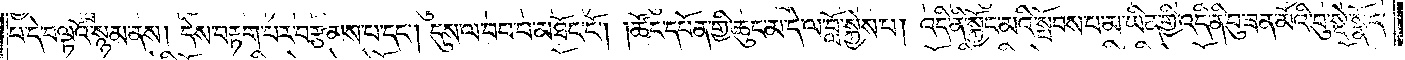པ་དེ་བལྟའོ་སྙམ་ནས། དེས་བརྟག་པར་བརྩམས་པ་དང༌། དུས་ལ་བབ་པ་མཐོང་ངོ༌། །ཚོང་དཔོན་གྱི་ཆུང་མ་དེ་ལ་བློ་སྐྱེས་པ། འདི་ནི་སྐྱོང་མའི་སྤོབས་པ་མ་ཡིན་གྱི་འདི་ནི་བུ་ཟན་མོའི་བུ་སྡེ་སྣོད་
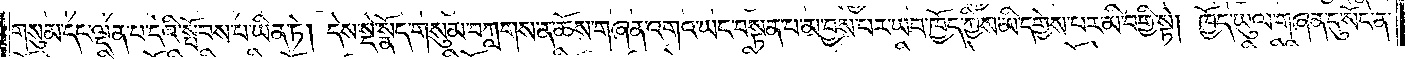གསུམ་དང་ལྡན་པ་དེའི་སྤོབས་པ་ཡིན་ཏེ། དེས་སྡེ་སྣོད་གསུམ་བཀླགས་ན་ཆོས་གཞན་འགའ་ཡང་བསྟན་པ་མ་བྱས་པར་ཡབ་ཁྱོད་ཀྱིས་མི་དགྱེས་པར་མི་བགྱི་སྟེ། ཁྱོད་ཡུལ་གཞན་དུ་སོང་ན་
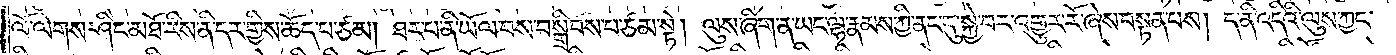ལོ་ལེགས་ཤིང་མཐོ་རིས་ནི་དར་གྱིས་ཆོད་པ་ཙམ། ཐར་པ་ནི་ཡོལ་བས་བསྒྲིབས་པ་ཙམ་སྟེ། ལུས་ཞིག་ན་ཡང་ལྷ་རྣམས་ཀྱི་ནང་དུ་སྐྱེ་བར་འགྱུར་རོ་ཞེས་བསྟན་པས། ད་ནི་འདིའི་ལུས་ཀྱང་
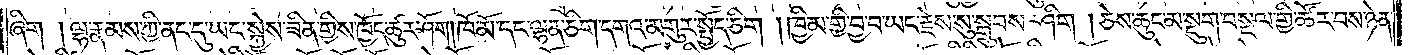ཞིག །ལྷ་རྣམས་ཀྱི་ནང་དུ་ཡང་སྐྱེས་ཟིན་གྱིས་ཁྱོད་ཚུར་ཤོག །ཁོ་མོ་དང་ལྷན་ཅིག་དགའ་མགུར་སྤྱོད་ཅིག །ཁྱིམ་གྱི་བྱ་བ་ཡང་རྗེས་སུ་སྒྲུབས་ཤིག །ཅེས་ཆུང་མ་སྡུག་བསྔལ་གྱི་ཚོར་བས་ཉེན་
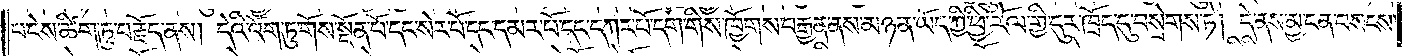པ་ངེས་ཚིག་ཏུ་བརྗོད་ནས། དེའི་འོག་ཏུ་གོས་སྔོན་པོ་དང་སེར་པོ་དང་དམར་པོ་དང་དཀར་པོ་དག་གིས་ཁྱོགས་བརྒྱན་ནས་མཉན་ཡོད་ཀྱི་ཕྱི་རོལ་གྱི་དུར་ཁྲོད་དུ་བསྲེགས་ཏེ། དེ་ནས་མྱ་ངན་བསངས་
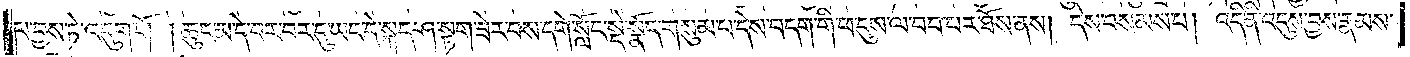པ་བྱས་ཏེ་འདུག་གོ །ཆུང་མ་དེ་བར་བར་དུ་ཡང་དེ་སྐད་ཤ་སྟག་ཟེར་བས་དགེ་སློང་སྡེ་སྣོད་གསུམ་པ་དེས་བདག་གི་ཕ་དུས་ལ་བབ་པར་ཐོས་ནས། དེས་བསམས་པ། འདི་ནི་འདུས་བྱས་རྣམས་
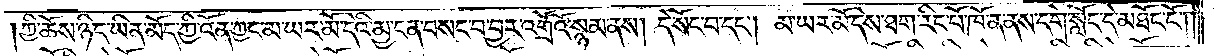།ཀྱི་ཆོས་ཉིད་ཡིན་མོད་ཀྱི་འོན་ཀྱང་མ་ཡར་མོ་དེའི་མྱ་ངན་བསང་བ་བྱར་འགྲོའོ་སྙམ་ནས། དེ་སོང་བ་དང༌། མ་ཡར་མོ་དེས་ཐག་རིང་པོ་ཁོ་ན་ནས་དགེ་སློང་དེ་མཐོང་ངོ༌། །
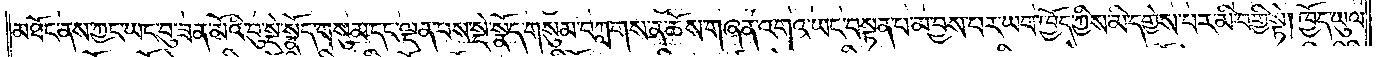མཐོང་ནས་ཀྱང་ཡང་བུ་ཟན་མོའི་བུ་སྡེ་སྣོད་གསུམ་དང་ལྡན་པས་སྡེ་སྣོད་གསུམ་བཀླགས་ན་ཆོས་གཞན་འགའ་ཡང་བསྟན་པ་མ་བྱས་པར་ཡབ་ཁྱོད་ཀྱིས་མི་དགྱེས་པར་མི་བགྱི་སྟེ། ཁྱོད་ཡུལ་
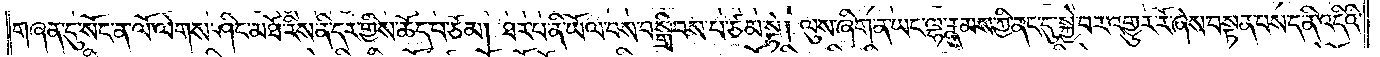གཞན་དུ་སོང་ན་ལོ་ལེགས་ཤིང་མཐོ་རིས་ནི་དར་གྱིས་ཆོད་པ་ཙམ། ཐར་པ་ནི་ཡོལ་བས་བསྒྲིབས་པ་ཙམ་སྟེ། ལུས་ཞིག་ན་ཡང་ལྷ་རྣམས་ཀྱི་ནང་དུ་སྐྱེ་བར་འགྱུར་རོ་ཞེས་བསྟན་པས་ད་ནི་འདིའི་
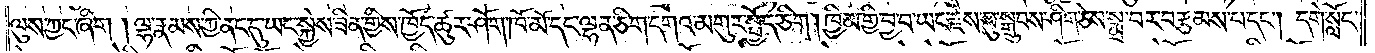ལུས་ཀྱང་ཞིག། ལྷ་རྣམས་ཀྱི་ནང་དུ་ཡང་སྐྱེས་ཟིན་གྱིས་ཁྱོད་ཚུར་ཤོག་ཁོ་མོ་དང་ལྷན་ཅིག་དགའ་མགུར་སྤྱོད་ཅིག། ཁྱིམ་གྱི་བྱ་བ་ཡང་རྗེས་སུ་སྒྲུབས་ཤིག་ཅེས་སྨྲ་བར་བརྩམས་པ་དང༌། དགེ་སློང་
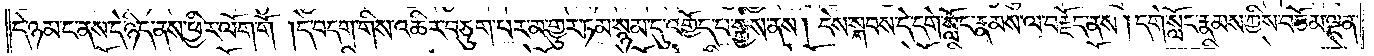དེ་ཉམ་ང་ནས་དེ་ཉིད་ནས་ཕྱིར་ལོག་གོ །དེ་བདག་གིས་འཆིར་བཅུག་པར་མ་གྱུར་ཏམ་སྙམ་དུ་འགྱོད་པ་སྐྱེས་ནས། དེས་སྐབས་དེ་དགེ་སློང་རྣམས་ལ་བརྗོད་ནས། དགེ་སློང་རྣམས་ཀྱིས་བཅོམ་ལྡན་
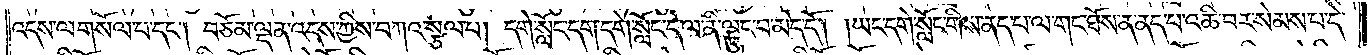འདས་ལ་གསོལ་པ་དང༌། བཅོམ་ལྡན་འདས་ཀྱིས་བཀའ་སྩལ་པ། དགེ་སློང་དག་དགེ་སློང་དེ་ལ་ནི་ལྟུང་བ་མེད་དོ། །ཡང་དགེ་སློང་གིས་ནད་པ་ལ་གང་ཐོས་ན་ནད་པ་འཆི་བར་སེམས་པ་དེ་
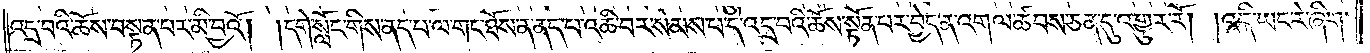འདྲ་བའི་ཆོས་བསྟན་པར་མི་བྱའོ། །དགེ་སློང་གིས་ནད་པ་ལ་གང་ཐོས་ན་ནད་པ་འཆི་བར་སེམས་པ་དེ་འདྲ་བའི་ཆོས་སྟོན་པར་བྱེད་ན་འགལ་ཚབས་ཅན་དུ་འགྱུར་རོ། །འདི་ཡང་རེ་ཞིག་
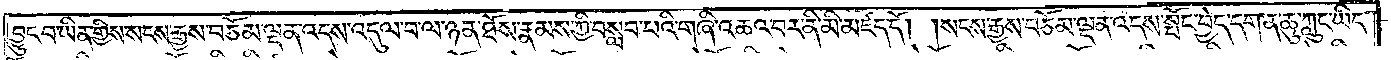བྱུང་བ་ཡིན་གྱིས་སངས་རྒྱས་བཅོམ་ལྡན་འདས་འདུལ་བ་ལ་ཉན་ཐོས་རྣམས་ཀྱི་བསླབ་པའི་གཞི་འཆའ་བར་ནི་མི་མཛད་དོ། །སངས་རྒྱས་བཅོམ་ལྡན་འདས་སྤོང་བྱེད་དག་ན་ཆུ་ཀླུང་ཡིད་
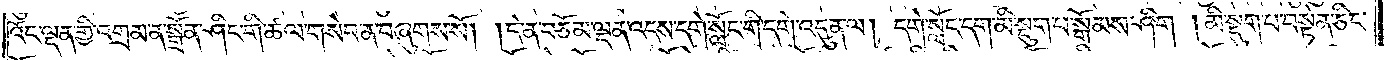འོང་ལྡན་གྱི་འགྲམ་ན་སྒྲོན་ཤིང་གི་ཚལ་གསེབ་ན་བཞུགས་སོ། །དེ་ན་བཅོམ་ལྡན་འདས་དགེ་སློང་གི་དགེ་འདུན་ལ། དགེ་སློང་དག་མི་སྡུག་པ་སྒོམས་ཤིག །མི་སྡུག་པ་བསྟེན་ཅིང་
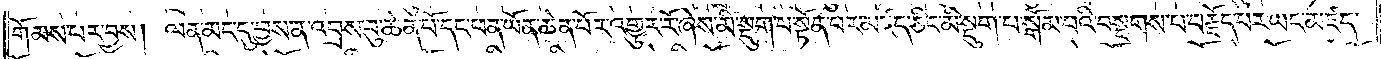གོམས་པར་བྱས། ལན་མང་དུ་བྱས་ན་འབྲས་བུ་ཆེན་པོ་དང་ཕན་ཡོན་ཆེན་པོར་འགྱུར་རོ་ཞེས་མི་སྡུག་པ་སྟོན་པར་མཛད་ཅིང་མི་སྡུག་པ་སྒོམ་པའི་བསྔགས་པ་བརྗོད་པར་ཡང་མཛད་
